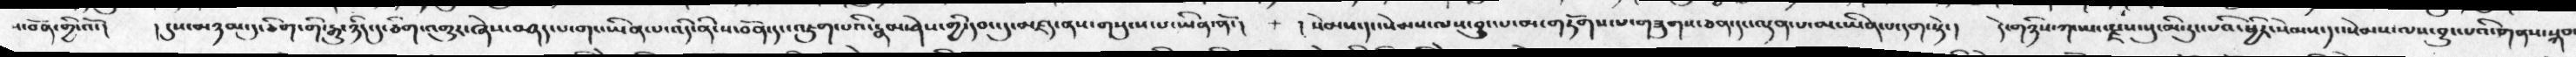ས་བོན་གྱི་འོ་།    །དུས་མཉམ་དུ་ཅིག་གི་རྒྱུ་ཉིད་དུ་ཅིག་འགྱུར་ཞེས་བཤད་པ་གང་ཡིན་པ་འདི་ནི་ས་བོན་དང་འཇུག་པའི་རྣམ་ཤེས་ཀྱི་དབང་དུ་མཛད་ནས་གསུངས་པ་ཡིན་ནོ་།     །སེམས་དང་སེམས་ལས་བྱུང་པ་མ་གཏོགས་པ་གཟུགས་ཅན་དང་ལྡན་པ་མ་ཡིན་པ་དག་སྟེ་།    དེ་གཉིས་ཀ་ཡང་རྫས་སུ་མི་རུང་པའི་ཕྱིར་སེམས་དང་སེམས་ལས་བྱུང་པའི་གནས་སྐབས
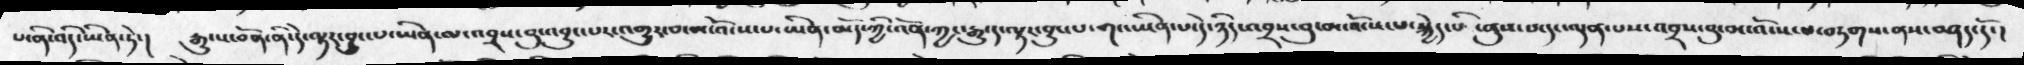པ་ནི་འདི་ཡིན་ཏེ་།   རྒྱུ་ས་བོན་ནི་དེ་ལྟར་བྱུང་པ་ཡིན་ལ་འབྲས་བུ་འབྱུང་པར་འགྱུར་བ་མ་འོངས་པ་ཡིན་མོད་ཀྱི་འོན་ཀྱང་རྒྱུ་ད་ལྟར་ནུས་པ་གང་ཡིན་པ་དེ་ཉིད་འབྲས་བུ་མ་འོངས་པ་སྐྱེད་པའི་ནུས་པ་དང་ལྡན་པས་འབྲས་བུ་མ་འོངས་པ་བཏགས་ནས་བཤད་དོ་།
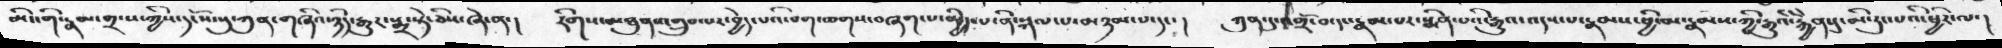མིང་གི་རྣམ་གྲངས་ཀྱིས་དངོས་སུ་ཀུན་གཞིའ་ཉིད་རྒྱུར་སྨྲ་སྟེ་ཅིས་ཞེ་ན་།  རིགས་མཐུན་འགྲུབ་པར་བྱེད་པའི་བག་ཆགས་བཞག་པ་མྱིད་པ་ནི་སྐལ་པ་མཉམ་པ་དང་།   ཀུན་དུ་འགྲོ་བ་དང་རྣམ་པར་སྨིན་པའི་རྒྱུའ་འདས་པ་རྣམས་ཕྱི་མ་རྣམས་ཀྱི་རྒྱུའི་རྐྱེན་དུ་མི་རུང་པའི་ཕྱིར་ལ་།
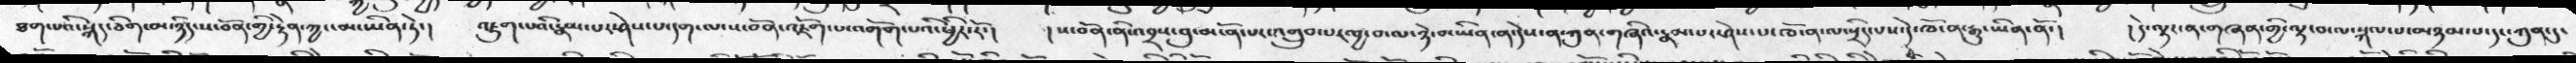ཐག་པའི་སྐད་ཅིག་མ་ཉིད་ས་བོན་གྱི་རྟེན་ཀྱང་མ་ཡིན་ཏེ་།   འཇུག་པའི་རྣམ་པར་ཤེས་པ་དག་ལ་ས་བོན་འཇོག་པ་འགོག་པའི་ཕྱིར་རོ་།   །ས་བོན་ནི་འབྲས་བུ་མངོན་པར་འགྲུབ་པར་བྱ་བ་ལ་ཉེ་བ་ཡིན་ན་དེས་ན་ཀུན་གཞིའ་རྣམ་པར་ཤེས་པ་ཁོ་ན་ལ་སྲིད་པས་དེ་ཁོ་ན་རྒྱུ་ཡིན་ནོ་།    །དེ་ལྟར་ན་གཞན་གྱི་ལྟ་བ་ལ་སྐལ་པ་མཉམ་པ་དང་ཀུན་དུ་
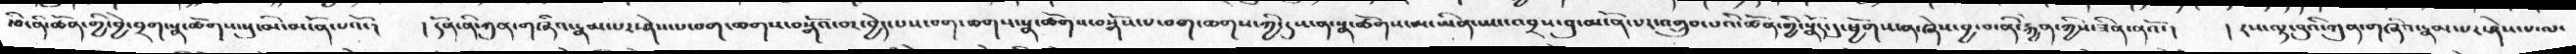རྩི་ནི་ཚོན་གྱི་བྱེ་བྲག་སྣ་ཚོགས་སུ་མི་མངོན་པའོ་།  །དོན་ནི་ཀུན་གཞིའ་རྣམ་པར་ཤེས་པ་བག་ཆགས་བསྒོའ་བར་བྱེད་པས་བག་ཆགས་སྣ་ཚོགས་བསྒོས་པ་བག་ཆགས་ཀྱི་དུས་ན་སྣ་ཚོགས་མ་ཡིན་ཡང་འབྲས་བུ་མངོན་པར་འགྲུབ་པའི་ཚོན་གྱི་སྣོད་དུ་ཕྱོགས་ན་ཞེས་བྱ་བ་ནི་རྐྱེན་ཀྱིས་ཟིན་ནའོ་།  །རས་ལྟ་བུའི་ཀུན་གཞིའ་རྣམ་པར་ཤེས་པ་ལ་
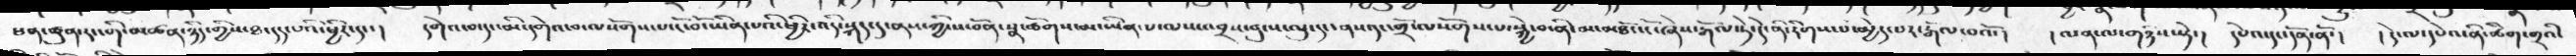ཕན་ཚུན་རང་གི་མཚན་ཉིད་གྱིས་ཐ་དད་པའི་ཕྱིར་དང་།   དགེ་བ་དང་མི་དགེའ་བ་ལསོགས་པ་ངོ་བོ་ཡིན་པའི་ཕྱིར་འདི་སྐད་དུ་ནས་ཀྱི་ས་བོན་སྣ་ཚོགས་མ་ཡིན་པ་ལས་འབྲས་བུ་ས་ལུ་དང་ནས་དང་གྲོ་ལསོགས་པ་སྐྱེ་བ་ནི་མ་མཐོང་ངོ་ཞེས་རྒོལ་ཏེ་དེ་ནི་རིགས་པ་མྱེད་པར་རྒོལ་བའོ་།   །ལན་ལ་གཉིས་སྟེ་།  དེཔའ་དང་དོན་ནོ་།  །དེ་ལ་དེཔའ་ནི་ཚིག་གྲའི་
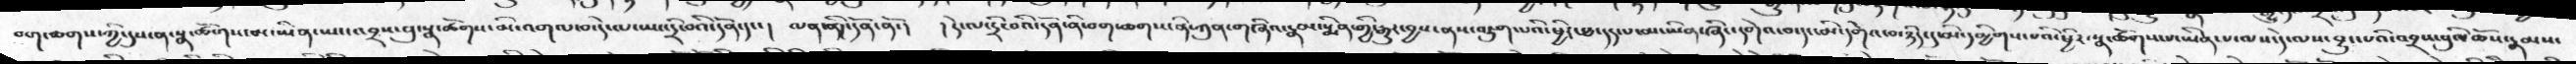བག་ཆགས་ཀྱི་དུས་ན་སྣ་ཚོགས་མ་ཡིན་ཡང་འབྲས་བུ་སྣ་ཚོགས་མི་འགལ་བ་དེ་ལ་ཡང་དྲི་བའི་དོན་དང་།  ལན་ནི།་དོན་ནོ་།  །དེ་ལ་དྲི་བའི་དོན་ནི་བག་ཆགས་ནི་ཀུན་གཞིའ་རྣམ་སྨིན་གྱི་རྒྱུར་བྱས་ནས་འཇུག་པའི་ཕྱིར་ཐ་དད་པ་མ་ཡིན་ཞིང་དགེའ་བ་དང་མི་དགེའ་བ་ཉིད་དུ་མི་དམྱིགས་པའི་ཕྱིར་སྣ་ཚོགས་པ་ཡིན་པ་ལས་དེ་ལས་བྱུང་པའི་འབྲས་བུའི་ཆོས་རྣམས་
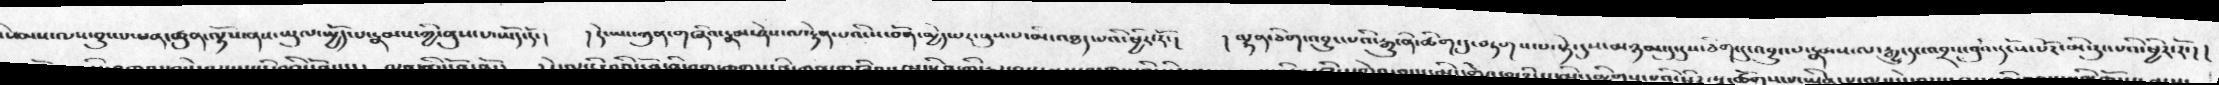སེམས་ལས་བྱུང་པ་ཕན་ཚུན་ལྟོས་ནས་ཡུལ་སྤྱོད་པ་རྣམས་ཀྱི་ནུས་པ་ཡོད་དོ་།  །དེ་ཡང་ཀུན་གཞིའ་རྣམ་ཤེས་ལ་རྟེན་པའི་ས་བོན་མྱེད་པར་ནུས་པ་མི་འཐད་པའི་ཕྱིར་རོ་།   །ལྷན་ཅིག་འབྱུང་པའི་རྒྱུ་ནི་ཚིག་དུ་བཏགས་པ་སྟེ་དུས་མཉམ་དུ་དུས་ཅིག་དུ་འབྱུང་པ་རྣམས་ལ་རྒྱུ་དང་འབྲས་བུའི་དངོས་པོར་མི་རུང་པའི་ཕྱིར་རོ་། །
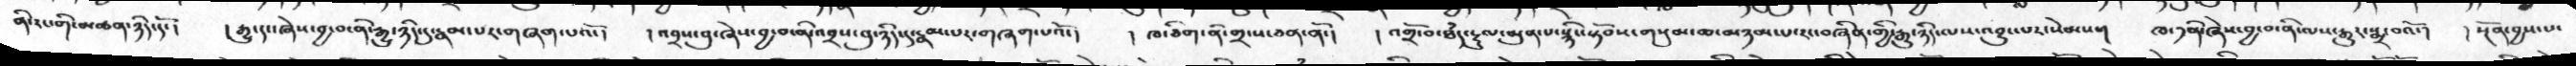ནི་རང་གི་མཚན་ཉིད་དོ་།   །རྒྱུ་དང་ཞེས་བྱ་བ་ནི་རྒུ་ཉིད་དུ་རྣམ་པར་གཞག་པའོ་།   །འབྲས་བུ་ཞེས་བྱ་བ་ནི་འབྲས་བུ་ཉིད་དུ་རྣམ་པར་གཞག་པའོ་།   །ཁ་ཅིག་ནི་གྲངས་ཅན་ནོ་།  །འགྲོ་བ་ཐཾད་རྡུལ་མུན་པ་སྙིང་སྟོབས་གསུམ་ཆ་མཉམ་པ་རང་བཞིན་གྱི་རྒྱུ་ཉིད་ལས་འབྱུང་པར་སེམས་།  ཁ་༡ནི་ཞེས་བྱ་བ་ནི་ལས་རྒྱུར་སྨྲ་བའོ་།  །སྔོན་བྱས་པ་
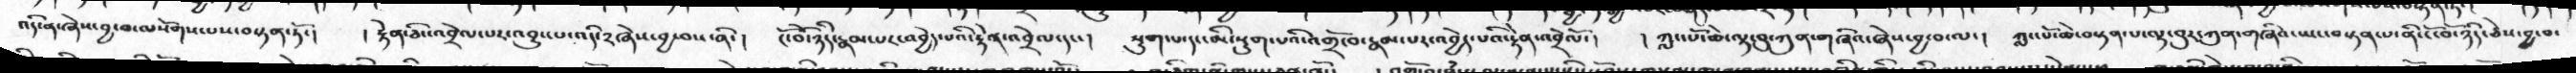འདི་ན་ཞེས་བྱ་བ་ལསོགས་པས་བསྟན་ཏོ་།   །རྟེན་ཅིང་འབྲེལ་བར་འབྱུང་པ་འདི་༢ཞེས་བྱ་བས་ནི་།  ངོ་བོ་ཉིད་རྣམ་པར་འབྱེད་པའི་རྟེན་འབྲེལ་དང་།  སྡུག་པ་དང་མི་སྡུག་པའི་འགྲོ་བ་རྣམ་པར་འབྱེད་པའི་རྟེན་འབྲེལོ་།   །ཀླང་པོ་ཆེ་ལྟ་བུ་ཀུན་གཞིའ་ཞེས་བྱ་བ་ལ་།   ཀླང་པོ་ཆེ་བསྟན་པ་ལྟ་བུར་ཀུན་གཞིའ་ཡང་བསྟན་པ་ནི་ངོ་བོ་ཉིད་ཅེས་བྱ་བ་
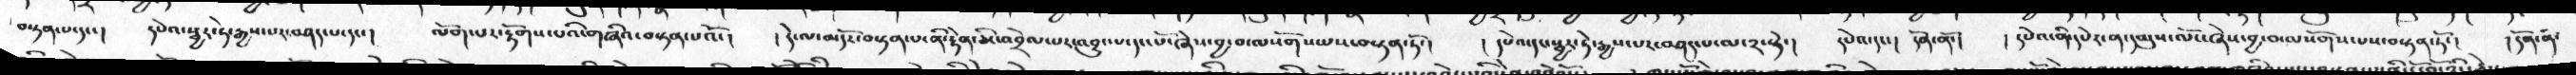བསྟན་པ་དང་།   དཔེའ་སྦྱར་ཏེ་སྒྱས་པར་བཤད་པ་དང་།  ལོག་པར་རྟོགས་པའི་གཞིའ་བསྟན་པའོ་།   །དེ་ལ་མདོར་བསྟན་པ་ནི་རྟེན་ཅིང་འབྲེལ་བར་འབྱུང་པ་དང་པོ་ཞེས་བྱ་བ་ལསོགས་པས་བསྟན་ཏོ་།   །དཔེའ་དང་སྦྱར་ཏེ་རྒྱས་པར་བཤད་པ་ལ་༢་སྟེ་།   དཔེའ་དང་།  དོན་ནོ་།   །དཔེའ་ནི་དཔེར་ན་དམུས་ལོང་ཞེས་བྱ་བ་ལསོགས་པས་བསྟན་ཏོ་།   །དོན་ནི་
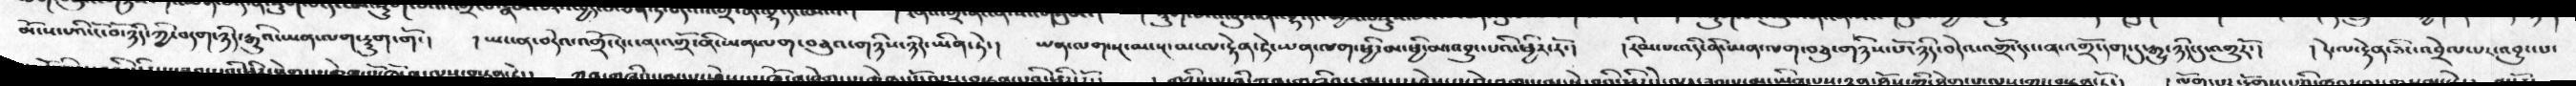མོངས་པའི་ངོ་བོ་ཉིད་ཀྱི་བདག་ཉིད་རྒྱུའི་ཡན་ལག་རྟུག་གོ་།   །ཡང་ན་བདེའ་འགྲོ་དང་ངན་འགྲོ་ནི་ཡན་ལག་བཅུའ་གཉིས་ཉིད་ཡིན་ཏེ་།   ཡན་ལག་སྔ་མ་སྔ་མ་ལ་རྟེན་ཏེ་ཡན་ལག་ཕྱི་མ་ཕྱི་མ་འབྱུང་པའི་ཕྱིར་རོ་།   །རིམ་པ་འདི་ནི་ཡན་ལག་བཅུ་གཉིས་པོ་ཉིད་བདེའ་འགྲོ་དང་ངན་འགྲོ་དག་དུ་རྒྱུ་ཉིད་དུ་འགྱུརོ་།   །དེ་ལ་རྟེན་ཅིང་འབྲེལ་པར་འབྱུང་པ་
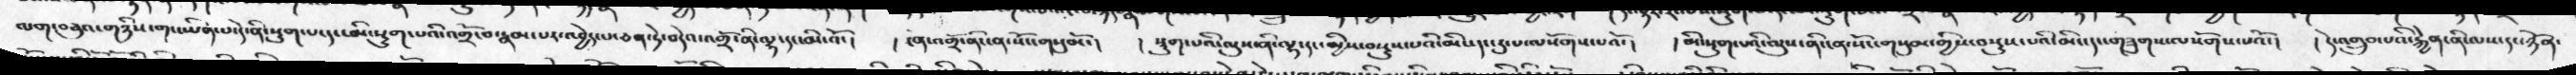ལག་བཅུའ་གཉིས་གང་ཡིན་པ་དེ་ནི་སྡུག་པ་དང་མི་སྡུག་པའི་འགྲོ་བ་རྣམ་པར་འབྱེད་པ་ཅན་ཏེ་བདེའ་འགྲོ་ནི་ལྷ་དང་མི་འོ་།  །ངན་འགྲོ་ནི་ངན་སོང་གསུམོ་།   །སྡུག་པའི་ལུས་ནི་ལྷ་དང་མྱིས་བསྡུས་པའི་མིང་དང་རུ་པ་ལསོགས་པའོ་།  །མི་སྡུག་པའི་ལུས་ནི་ངན་སོང་གསུམ་གྱིས་བསྡུས་པའི་མིང་དང་གཟུགས་ལསོགས་པའོ་།  །དེ་འགྲུབ་པའི་རྐྱེན་ནི་ལས་དང་ཉོན་
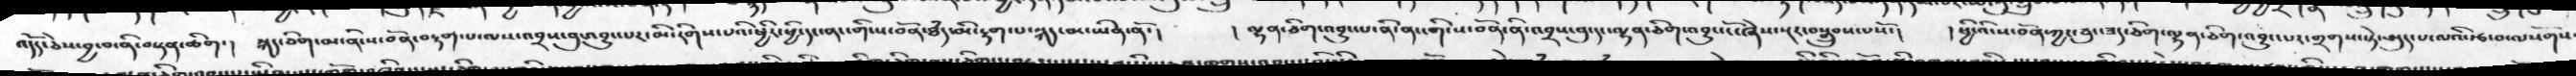འདོད་ཅེས་བྱ་བ་ནི་བསྟན་ཆིག་།   སྐད་ཅིག་མ་ནི་ས་བོན་བརྟག་པ་ལས་འབྲས་བུ་འབྱུང་པར་མི་རིགས་པའི་ཕྱིར་ཕྱི་དང་ནང་གི་ས་བོན་ཐཾད་མི་རྟག་པ་སྐད་མ་ཡིན་ནོ་།   །ལྷན་ཅིག་འབྱུང་པ་ནི་ནང་གི་ས་བོན་ནི་འབྲས་བུ་དང་ལྷན་ཅིག་འབྱུང་ངོ་ཞེས་སྔར་བསྒྲུབས་པསོ་།   །ཕྱི་འི་ས་བོན་ཀྱང་ཅུང་ཟད་ཅིག་ལྷན་ཅིག་འབྱུང་པར་གྲགས་སྟེ་བདུད་པ་ལའི་རྩ་བ་ལསོགས
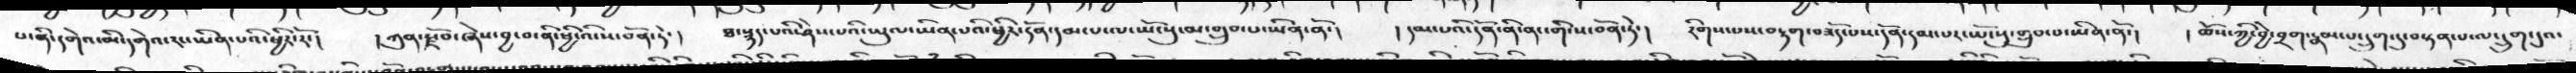པ་ནི་དགེའ་མི་དགེའ་རང་ཡིན་པའི་ཕྱིར་རོ་།  །ཀུན་རྫོབ་ཞེས་བྱ་བ་ནི་ཕྱི་འི་ས་བོན་ཏེ་།  ཐ་སྙད་པའི་ཤེས་པའི་ཡུལ་ཡིན་པའི་ཕྱིར་དོན་དམ་པ་ལ་ཡོངསུ་མ་གྲུབ་པ་ཡིན་ནོ་།  །དམ་པའི་དོན་ནི་ནང་གི་ས་བོན་ཏེ་།  རིགས་པས་བརྟག་བཟོད་པས་དོན་དམ་པར་ཡོངསུ་གྲུབ་པ་ཡིན་ནོ་།  །ཆོས་ཀྱི་བྱེ་བྲག་རྣམ་པ་དྲུག་དུ་བསྟན་པ་ལ་དྲུག་དུའ་
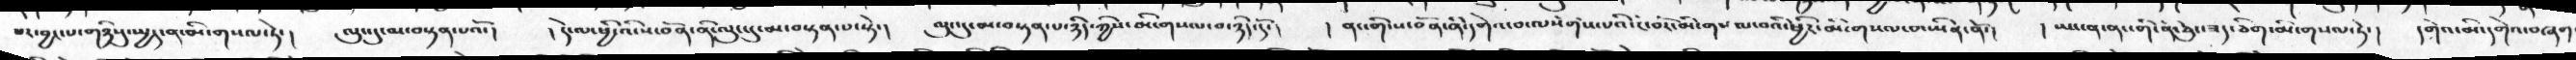པར་བྱང་པ་གཉིསུ་སྤྱད་ན་མི་གསལ་ཏེ་།  ལུང་དུ་མ་བསྟན་པའོ་།  །དེ་ལ་ཕྱི་འི་ས་བོན་ནི་ལུང་དུ་མ་བསྟན་པ་སྟེ་།  ལུང་དུ་མ་བསྟན་པ་ཉིད་ཀྱིས་མི་གསལ་བ་ཉིད་དོ་།  །ནང་གི་ས་བོན་ནི་དགེའ་བ་ལསོགས་པའི་ངོ་བོར་མི་གསལ་བའི་ཕྱིར་མི་གསལ་བ་ཡིན་ནོ་།  །ཡང་ན་ནང་གི་ན་ཅུང་ཟད་ཅིག་མི་གསལ་ཏེ་།  དགེའ་མི་དགེའ་བཞག
